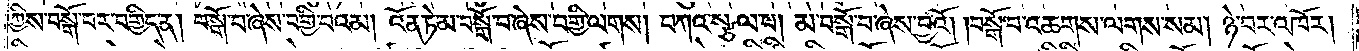ཀྱིས་བསྒོ་བར་བགྱིད་ན། བསྒོ་བ་ཞེས་བགྱི་བའམ། འོན་ཏེ་མ་བསྒོ་བ་ཞེས་བགྱི་ལགས། བཀའ་སྩལ་པ། མ་བསྒོ་བ་ཞེས་བྱའོ། །བསྒོ་བ་འཆགས་ལགས་སམ། ཉེ་བར་འཁོར།
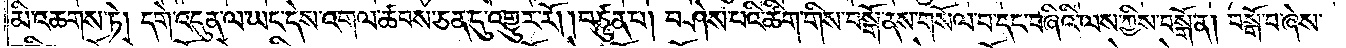མི་འཆགས་ཏེ། དགེ་འདུན་ལ་ཡང་དེས་འགལ་ཚབས་ཅན་དུ་འགྱུར་རོ། །བཙུན་པ། བཤེས་པའི་ཚིག་གིས་བསྒོ་ནས་གསོལ་བ་དང་བཞིའི་ལས་ཀྱིས་བསྒོ་ན། བསྒོ་བ་ཞེས་
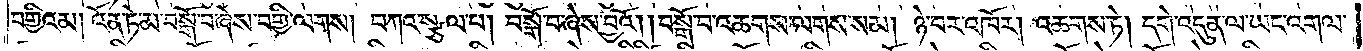བགྱིའམ། འོན་ཏེ་མ་བསྒོ་བ་ཞེས་བགྱི་ལགས། བཀའ་སྩལ་པ། བསྒོ་བ་ཞེས་བྱའོ། །བསྒོ་བ་འཆགས་ལགས་སམ། ཉེ་བར་འཁོར། འཆགས་ཏེ། དགེ་འདུན་ལ་ཡང་འགལ་
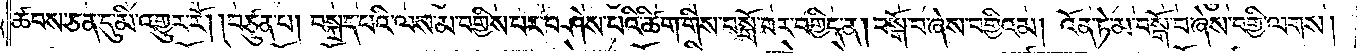ཚབས་ཅན་དུ་མི་འགྱུར་རོ། །བཙུན་པ། བསྐྲད་པའི་ལས་མ་བགྱིས་པར་བཤེས་པའི་ཚིག་གིས་བསྒོ་བར་བགྱིད་ན། བསྒོ་བ་ཞེས་བགྱིའམ། འོན་ཏེ་མ་བསྒོ་བ་ཞེས་བགྱི་ལགས།
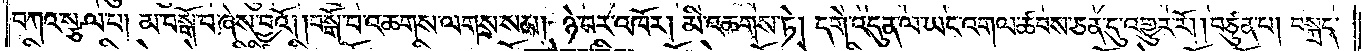བཀའ་སྩལ་པ། མ་བསྒོ་བ་ཞེས་བྱའོ། །བསྒོ་བ་འཆགས་ལགས་སམ། ཉེ་བར་འཁོར། མི་འཆགས་ཏེ། དགེ་འདུན་ལ་ཡང་འགལ་ཚབས་ཅན་དུ་འགྱུར་རོ། །བཙུན་པ། བསྐྲད་
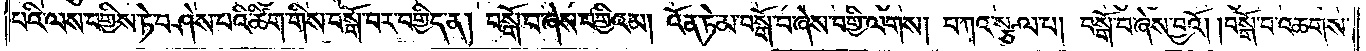པའི་ལས་བགྱིས་ཏེ་བཤེས་པའི་ཚིག་གིས་བསྒོ་བར་བགྱིད་ན། བསྒོ་བ་ཞེས་བགྱིའམ། འོན་ཏེ་མ་བསྒོ་བ་ཞེས་བགྱི་ལགས། བཀའ་སྩལ་པ། བསྒོ་བ་ཞེས་བྱའོ། །བསྒོ་བ་འཆགས་
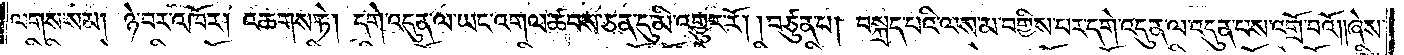ལགས་སམ། ཉེ་བར་འཁོར། འཆགས་ཏེ། དགེ་འདུན་ལ་ཡང་འགལ་ཚབས་ཅན་དུ་མི་འགྱུར་རོ། །བཙུན་པ། བསྐྲད་པའི་ལས་མ་བགྱིས་པར་དགེ་འདུན་ལ་འདུན་པས་འགྲོ་བའོ། །ཞེས་
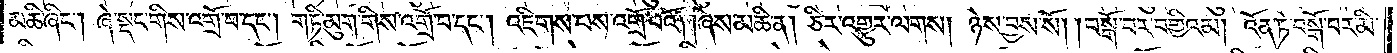མཆི་ཞིང༌། ཞེ་སྡང་གིས་འགྲོ་བ་དང༌། གཏི་མུག་གིས་འགྲོ་བ་དང༌། འཇིགས་པས་འགྲོ་བའོ། །ཞེས་མཆི་ན། ཅིར་འགྱུར་ལགས། ཉེས་བྱས་སོ། །བསྒོ་བར་བགྱིའམ། འོན་ཏེ་བསྒོ་བར་མི་
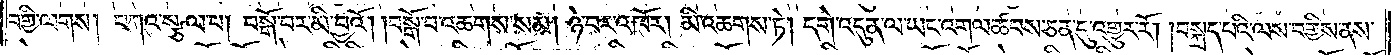བགྱི་ལགས། བཀའ་སྩལ་པ། བསྒོ་བར་མི་བྱའོ། །བསྒོ་བ་འཆགས་སམ། ཉེ་བར་འཁོར། མི་འཆགས་ཏེ། དགེ་འདུན་ལ་ཡང་འགལ་ཚབས་ཅན་དུ་འགྱུར་རོ། །བསྐྲད་པའི་ལས་བགྱིས་ནས་
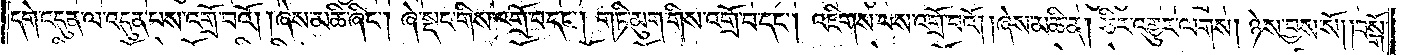དགེ་འདུན་ལ་འདུན་པས་འགྲོ་བའོ། །ཞེས་མཆི་ཞིང༌། ཞེ་སྡང་གིས་འགྲོ་བ་དང༌། གཏི་མུག་གིས་འགྲོ་བ་དང༌། འཇིགས་པས་འགྲོ་བའོ། །ཞེས་མཆི་ན། ཅིར་འགྱུར་ལགས། ཉེས་བྱས་སོ། །བསྒོ་
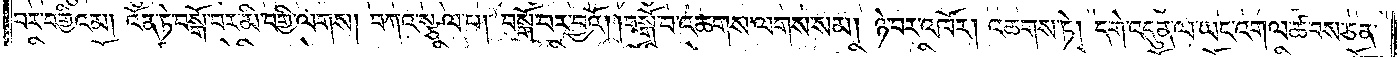བར་བགྱིའམ། འོན་ཏེ་བསྒོ་བར་མི་བགྱི་ལགས། བཀའ་སྩལ་པ། བསྒོ་བར་བྱའོ། །བསྒོ་བ་འཆགས་ལགས་སམ། ཉེ་བར་འཁོར། འཆགས་ཏེ། དགེ་འདུན་ལ་ཡང་འགལ་ཚབས་ཅན་
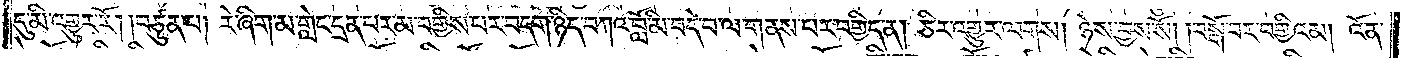དུ་མི་འགྱུར་རོ། །བཙུན་པ། རེ་ཞིག་མ་གླེང་དྲན་པར་མ་བགྱིས་པར་བདག་ཉིད་བཀའ་བློ་མི་བདེ་བ་ལ་གནས་པར་བགྱིད་ན། ཅིར་འགྱུར་ལགས། ཉེས་བྱས་སོ། །བསྒོ་བར་བགྱིའམ། འོན་
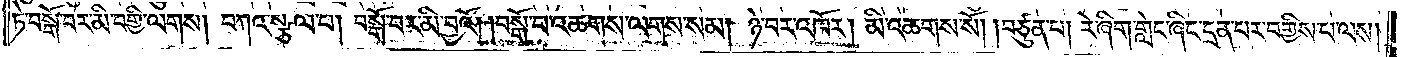ཏེ་བསྒོ་བར་མི་བགྱི་ལགས། བཀའ་སྩལ་པ། བསྒོ་བར་མི་བྱའོ། །བསྒོ་བ་འཆགས་ལགས་སམ། ཉེ་བར་འཁོར། མི་འཆགས་སོ། །བཙུན་པ། རེ་ཞིག་གླེང་ཞིང་དྲན་པར་བགྱིས་པ་ལས།
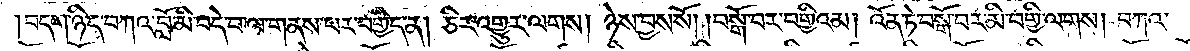།བདག་ཉིད་བཀའ་བློ་མི་བདེ་བ་ལ་གནས་པར་བགྱིད་ན། ཅིར་འགྱུར་ལགས། ཉེས་བྱས་སོ། །བསྒོ་བར་བགྱིའམ། འོན་ཏེ་བསྒོ་བར་མི་བགྱི་ལགས། བཀའ་
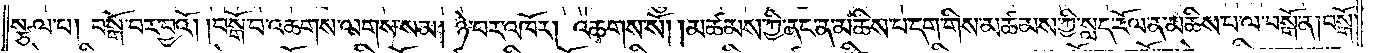སྩལ་པ། བསྒོ་བར་བྱའོ། །བསྒོ་བ་འཆགས་ལགས་སམ། ཉེ་བར་འཁོར། འཆགས་སོ། །མཚམས་ཀྱི་ནང་ན་མཆིས་པ་དག་གིས་མཚམས་ཀྱི་སླད་རོལ་ན་མཆིས་པ་བསྒོ་ན། བསྒོ་
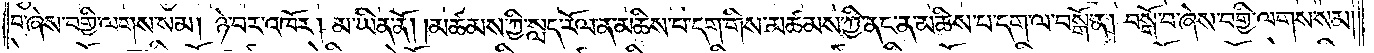བ་ཞེས་བགྱི་ལགས་སམ། ཉེ་བར་འཁོར། མ་ཡིན་ནོ། །མཚམས་ཀྱི་སླད་རོལ་ན་མཆིས་པ་དག་གིས་མཚམས་ཀྱི་ནང་ན་མཆིས་པ་དག་ལ་བསྒོ་ན། བསྒོ་བ་ཞེས་བགྱི་ལགས་སམ་
